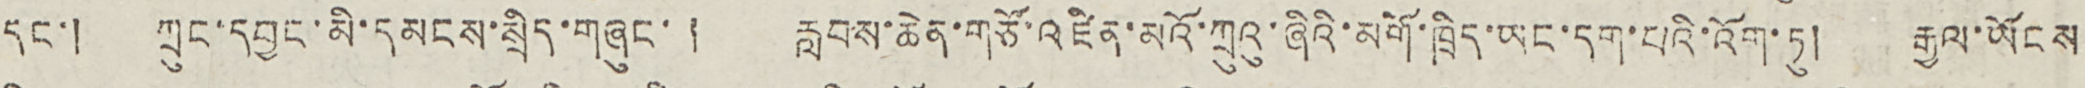དང་། ཀྲུང་དབྱང་མི་དམངས་སྲིད་གཞུང་། རླབས་ཆེན་གཙོ་འཛིན་མའོ་ཀྲུའུ་ཞིའི་མགོ་ཁྲིད་ཡང་དག་པའི་འོག་ཏུ། རྒྱལ་ཡོངས
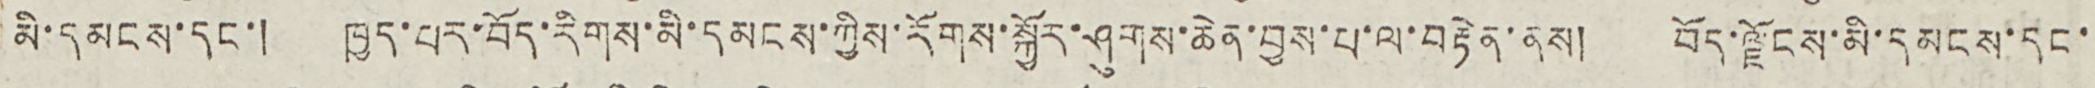མི་དམངས་དང་། ཁྱད་པར་བོད་རིགས་མི་དམངས་ཀྱིས་རོགས་སྐྱོར་ཤུགས་ཆེན་བྱས་པ་ལ་བརྟེན་ནས། བོད་ལྗོངས་མི་དམངས་དང་
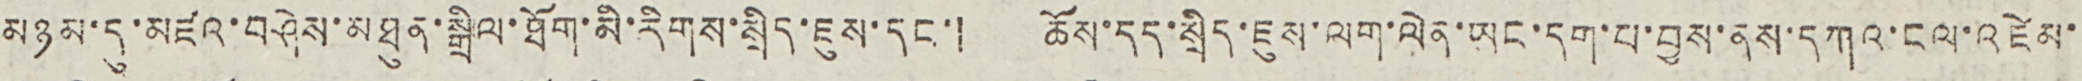མཉམ་དུ་མཛའ་བཤེས་མཐུན་སྒྲིལ་ཐོག་མི་རིགས་སྲིད་ཇུས་དང་། ཆོས་དད་སྲིད་ཇུས་ལག་ལེན་ཡང་དག་པ་བྱས་ནས་དཀའ་ངལ་འཛེམ་
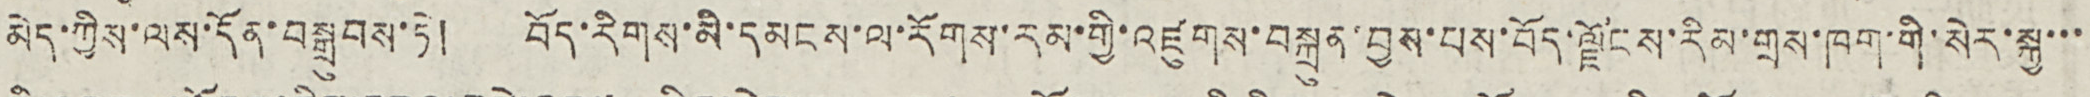མེད་ཀྱིས་ལས་དོན་བསྒྲུབས་ཏེ། བོད་རིགས་མི་དམངས་ལ་རོགས་རམ་གྱི་འཛུགས་བསྐྲུན་བྱས་པས་བོད་ལྗོངས་རིམ་གྲས་ཁག་གི་སེར་སྐྱ་་་
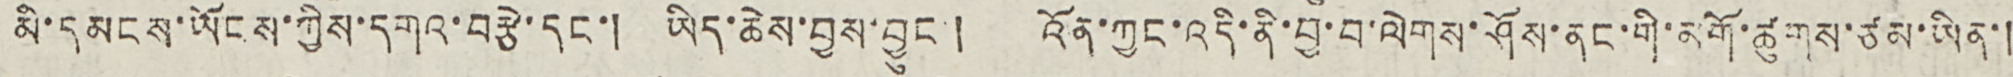མི་དམངས་ཡོངས་ཀྱིས་དགའ་བརྩེ་དང་། ཡིད་ཆེས་བྱས་བྱུང་། འོན་ཀྱང་འདི་ནི་བྱ་བ་ལེགས་ཤོས་ནང་གི་མགོ་ཚུགས་ཙམ་ཡིན་།
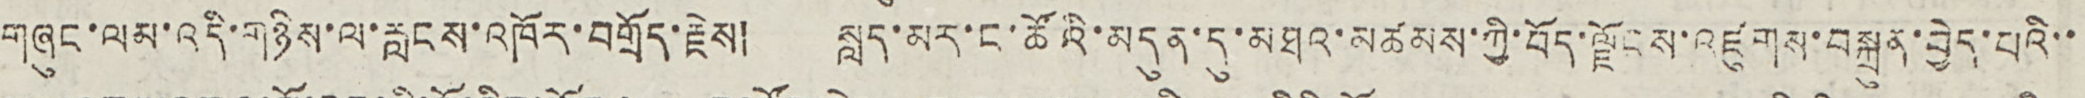གཞུང་ལམ་འདི་གཉིས་ལ་རླངས་འཁོར་བགྲོད་རྗེས། སླད་མར་ང་ཚོའི་མདུན་དུ་མཐའ་མཚམས་ཀྱི་བོད་ལྗོངས་འཛུགས་བསྐྲུན་བྱེད་པའི་་
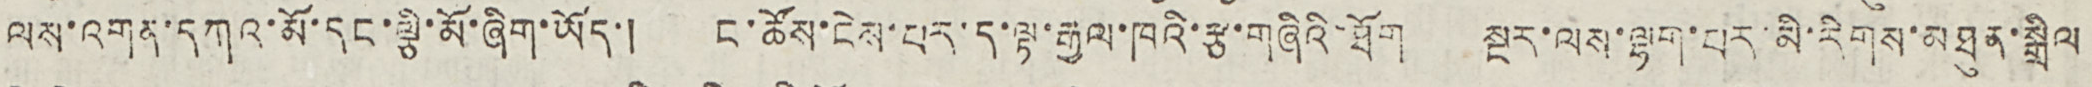ལས་འགན་དཀའ་མོ་དང་ལྕི་མོ་ཞིག་ཡོད་། ང་ཚོས་ངེས་པར་ད་ལྟ་རྒྱལ་ཁའི་རྩ་གཞིའི་ཐོག སྔར་ལས་ལྷག་པར་མི་རིགས་མཐུན་སྒྲིལ
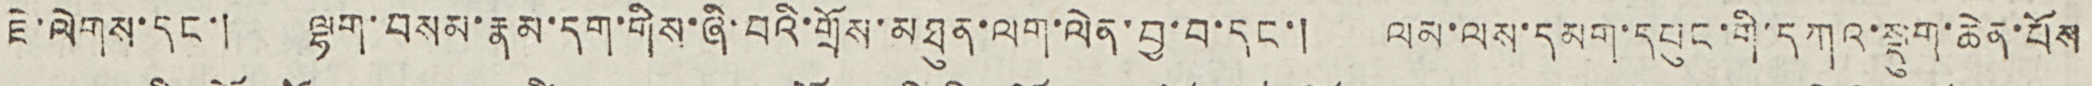ཇེ་ལེགས་དང་། ལྷག་བསམ་རྣམ་དག་གིས་ཞི་བའི་གྲོས་མཐུན་ལག་ལེན་བྱ་བ་དང་། ལམ་ལས་དམག་དཔུང་གི་དཀའ་སྡུག་ཆེན་པོས
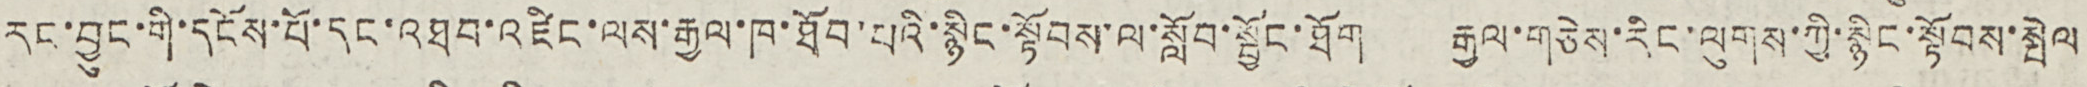རང་བྱུང་གི་དངོས་པོ་དང་འཐབ་འཛིང་ལས་རྒྱལ་ཁ་ཐོབ་པའི་སྙིང་སྟོབས་ལ་སློབ་སྦྱོང་ཐོག རྒྱལ་གཅེས་རིང་ལུགས་ཀྱི་སྙིང་སྟོབས་སྤེལ
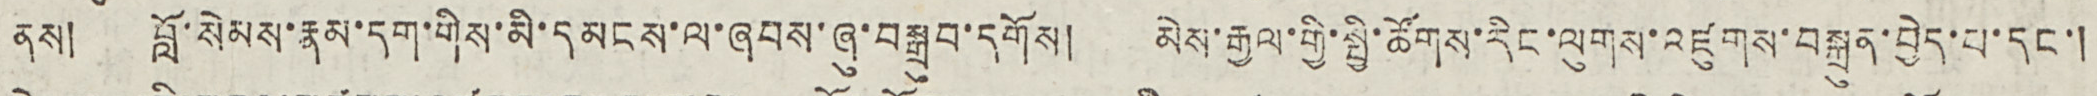ནས། བློ་སེམས་རྣམ་དག་གིས་མི་དམངས་ལ་ཞབས་ཞུ་བསྒྲུབ་དགོས། མེས་རྒྱལ་གྱི་སྤྱི་ཚོགས་རིང་ལུགས་འཛུགས་བསྐྲུན་བྱེད་པ་དང་།
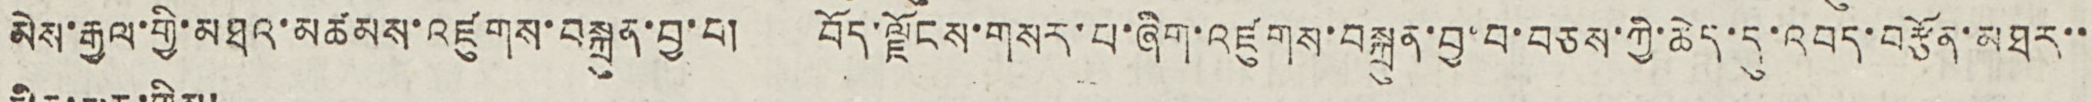མེས་རྒྱལ་གྱི་མཐའ་མཚམས་འཛུགས་བསྐྲུན་བྱ་བ། བོད་ལྗོངས་གསར་པ་ཞིག་འཛུགས་བསྐྲུན་བྱ་བ་བཅས་ཀྱི་ཆེད་དུ་འབད་བརྩོན་མཐར་་
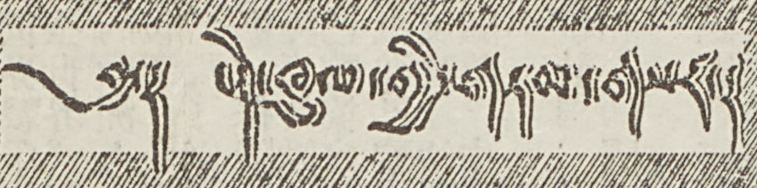༄༅༎ ངེད་ཁུལ་གྱི་གཏམ་གསར།
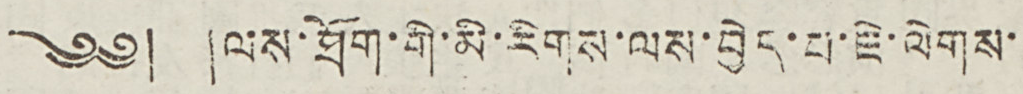༄༅། །ལས་ཐོག་གི་མི་རིགས་ལས་བྱེད་པ་ཇེ་ལེགས་
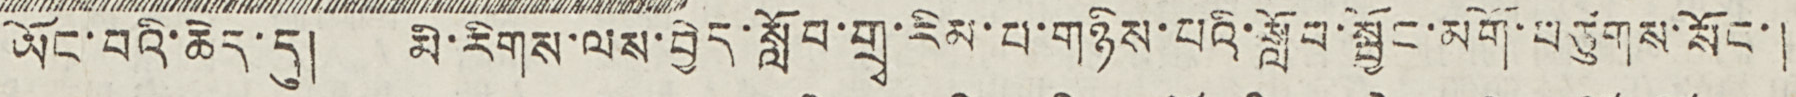ཡོང་བའི་ཆེད་དུ། མི་རིགས་ལས་བྱེད་སློབ་གྲྭ་རིམ་པ་གཉིས་པའི་སློབ་སྦྱོང་མགོ་བཙུགས་སོང་།
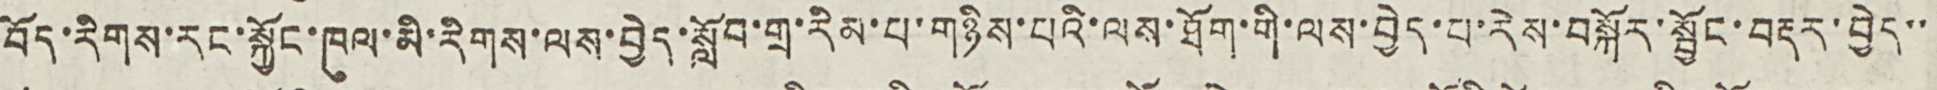བོད་རིགས་རང་སྐྱོང་ཁུལ་མི་རིགས་ལས་བྱེད་སློབ་གྲྭ་རིམ་པ་གཉིས་པའི་ལས་ཐོག་གི་ལས་བྱེད་པ་རེས་བསྐོར་སྦྱོང་བརྡར་བྱེད་་
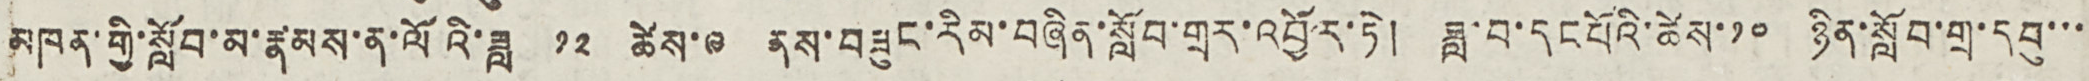མཁན་གྱི་སློབ་མ་རྣམས་ན་ལོའི་ཟླ ༡༢ ཚེས་༩ ནས་བཟུང་རིམ་བཞིན་སློབ་གྲྭར་འབྱོར་ཏེ། ཟླ་བ་དང པོའི་ཚེས་༡༠ ཉིན་སློབ་གྲྭ་དབུ་་་
